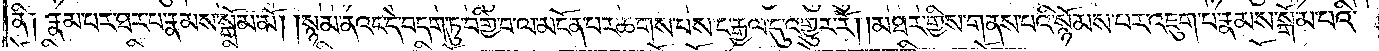ནི༑ རྣམ་པར་ཐར་པ་རྣམས་སྒོམ་མོ། །སྙམ་ནའང་དེ་བདག་ཏུ་བགྱི་བ་ལ་མངོན་པར་ཆགས་པས་ང་རྒྱལ་དུ་འགྱུར་རོ། །མཐར་གྱིས་གནས་པའི་སྙོམས་པར་འཇུག་པ་རྣམས་སྒོམ་པའི་
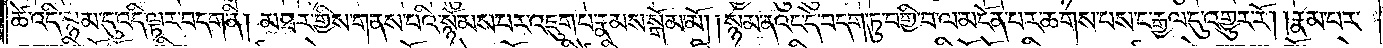ཚེ་འདི་སྙམ་དུ་འདི་ལྟར་བདག་ནི། མཐར་གྱིས་གནས་པའི་སྙོམས་པར་འཇུག་པ་རྣམས་སྒོམ་མོ། །སྙམ་ནའང་དེ་བདག་ཏུ་བགྱི་བ་ལ་མངོན་པར་ཆགས་པས་ང་རྒྱལ་དུ་འགྱུར་རོ། །རྣམ་པར་
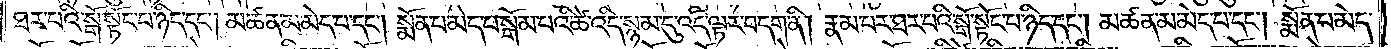ཐར་པའི་སྒོ་སྟོང་པ་ཉིད་དང་། མཚན་མ་མེད་པ་དང༌། སྨོན་པ་མེད་པ་སྒོམ་པའི་ཚེ་འདི་སྙམ་དུ་འདི་ལྟར་བདག་ནི། རྣམ་པར་ཐར་པའི་སྒོ་སྟོང་པ་ཉིད་དང༌། མཚན་མ་མེད་པ་དང༌། སྨོན་པ་མེད་
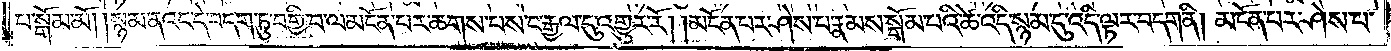པ་སྒོམ་མོ། །སྙམ་ནའང་དེ་བདག་ཏུ་བགྱི་བ་ལ་མངོན་པར་ཆགས་པས་ང་རྒྱལ་དུ་འགྱུར་རོ། །མངོན་པར་ཤེས་པ་རྣམས་སྒོམ་པའི་ཚེ་འདི་སྙམ་དུ་འདི་ལྟར་བདག་ནི། མངོན་པར་ཤེས་པ་
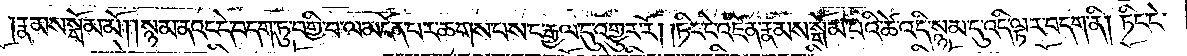རྣམས་སྒོམ་མོ། །སྙམ་ནའང་དེ་བདག་ཏུ་བགྱི་བ་ལ་མངོན་པར་ཆགས་པས་ང་རྒྱལ་དུ་འགྱུར་རོ། །ཏིང་ངེ་འཛིན་རྣམས་སྒོམ་པའི་ཚེ་འདི་སྙམ་དུ་འདི་ལྟར་བདག་ནི། ཏིང་ངེ་
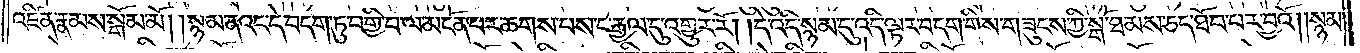འཛིན་རྣམས་སྒོམ་མོ། །སྙམ་ནའང་དེ་བདག་ཏུ་བགྱི་བ་ལ་མངོན་པར་ཆགས་པས་ང་རྒྱལ་དུ་འགྱུར་རོ། །དེ་འདི་སྙམ་དུ་འདི་ལྟར་བདག་གིས་གཟུངས་ཀྱི་སྒོ་ཐམས་ཅད་ཐོབ་པར་བྱའོ། །སྙམ་
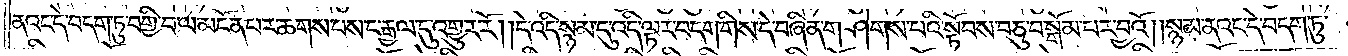ནའང་དེ་བདག་ཏུ་བགྱི་བ་ལ་མངོན་པར་ཆགས་པས་ང་རྒྱལ་དུ་འགྱུར་རོ། །དེ་འདི་སྙམ་དུ་འདི་ལྟར་བདག་གིས་དེ་བཞིན་གཤེགས་པའི་སྟོབས་བཅུ་བསྒོམ་པར་བྱའོ། །སྙམ་ནའང་དེ་བདག་ཏུ་
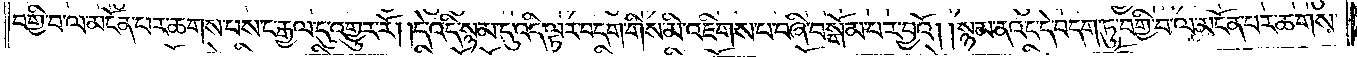བགྱི་བ་ལ་མངོན་པར་ཆགས་པས་ང་རྒྱལ་དུ་འགྱུར་རོ། །དེ་འདི་སྙམ་དུ་འདི་ལྟར་བདག་གིས་མི་འཇིགས་པ་བཞི་བསྒོམ་པར་བྱའོ། །སྙམ་ནའང་དེ་བདག་ཏུ་བགྱི་བ་ལ་མངོན་པར་ཆགས་
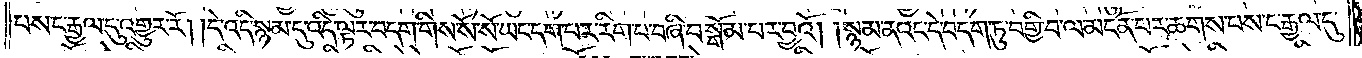པས་ང་རྒྱལ་དུ་འགྱུར་རོ། །དེ་འདི་སྙམ་དུ་འདི་ལྟར་བདག་གིས་སོ་སོ་ཡང་དག་པར་རིག་པ་བཞི་བསྒོམ་པར་བྱའོ། །སྙམ་ནའང་དེ་བདག་ཏུ་བགྱི་བ་ལ་མངོན་པར་ཆགས་པས་ང་རྒྱལ་དུ་
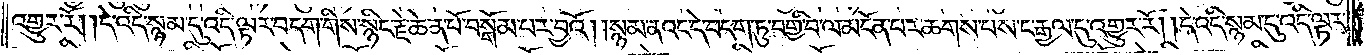འགྱུར་རོ། །དེ་འདི་སྙམ་དུ་འདི་ལྟར་བདག་གིས་སྙིང་རྗེ་ཆེན་པོ་བསྒོམ་པར་བྱའོ། །སྙམ་ནའང་དེ་བདག་ཏུ་བགྱི་བ་ལ་མངོན་པར་ཆགས་པས་ང་རྒྱལ་དུ་འགྱུར་རོ། །དེ་འདི་སྙམ་དུ་འདི་ལྟར་
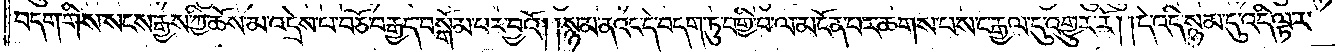བདག་གིས་སངས་རྒྱས་ཀྱི་ཆོས་མ་འདྲེས་པ་བཅོ་བརྒྱད་བསྒོམ་པར་བྱའོ། །སྙམ་ནའང་དེ་བདག་ཏུ་བགྱི་བ་ལ་མངོན་པར་ཆགས་པས་ང་རྒྱལ་དུ་འགྱུར་རོ། །དེ་འདི་སྙམ་དུ་འདི་ལྟར་
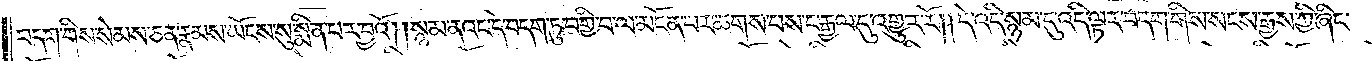བདག་གིས་སེམས་ཅན་རྣམས་ཡོངས་སུ་སྨིན་པར་བྱའོ། །སྙམ་ནའང་དེ་བདག་ཏུ་བགྱི་བ་ལ་མངོན་པར་ཆགས་པས་ང་རྒྱལ་དུ་འགྱུར་རོ། །དེ་འདི་སྙམ་དུ་འདི་ལྟར་བདག་གིས་སངས་རྒྱས་ཀྱི་ཞིང་
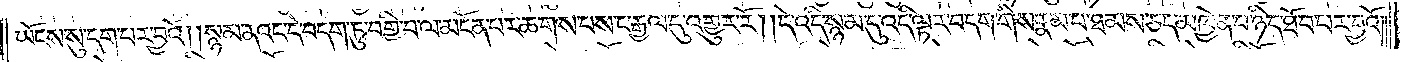ཡོངས་སུ་དག་པར་བྱའོ། །སྙམ་ནའང་དེ་བདག་ཏུ་བགྱི་བ་ལ་མངོན་པར་ཆགས་པས་ང་རྒྱལ་དུ་འགྱུར་རོ། །དེ་འདི་སྙམ་དུ་འདི་ལྟར་བདག་གིས་རྣམ་པ་ཐམས་ཅད་མཁྱེན་པ་ཉིད་ཐོབ་པར་བྱའོ། །
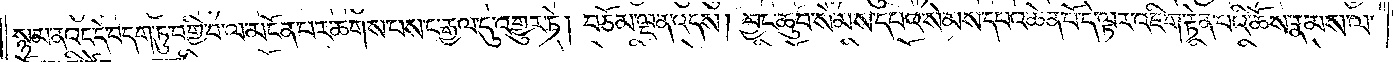སྙམ་ནའང་དེ་བདག་ཏུ་བགྱི་བ་ལ་མངོན་པར་ཆགས་པས་ང་རྒྱལ་དུ་འགྱུར་ཏེ། བཅོམ་ལྡན་འདས། བྱང་ཆུབ་སེམས་དཔའ་སེམས་དཔའ་ཆེན་པོ་དེ་ལྟར་འཇིག་རྟེན་པའི་ཆོས་རྣམས་ལ་
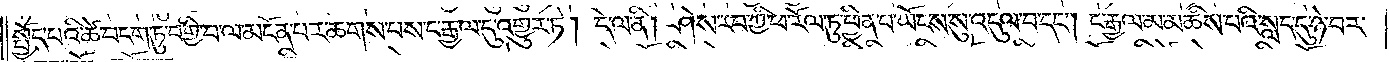སྤྱོད་པའི་ཚེ་བདག་ཏུ་བགྱི་བ་ལ་མངོན་པར་ཆགས་པས་ང་རྒྱལ་དུ་འགྱུར་ཏེ། དེ་ལ་ནི། ཤེས་རབ་ཀྱི་ཕ་རོལ་ཏུ་ཕྱིན་པ་ཡོངས་སུ་འདུལ་བ་དང༌། ང་རྒྱལ་མ་མཆིས་པའི་སླད་དུ་ཉེ་བར་
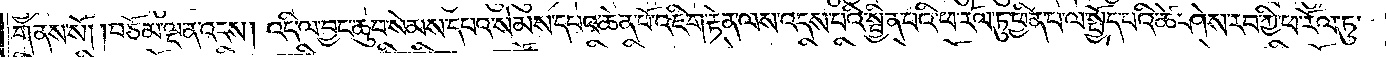གནས་སོ། །བཅོམ་ལྡན་འདས། འདི་ལ་བྱང་ཆུབ་སེམས་དཔའ་སེམས་དཔའ་ཆེན་པོ་འཇིག་རྟེན་ལས་འདས་པའི་སྦྱིན་པའི་ཕ་རོལ་ཏུ་ཕྱིན་པ་ལ་སྤྱོད་པའི་ཚེ་ཤེས་རབ་ཀྱི་ཕ་རོལ་ཏུ་
